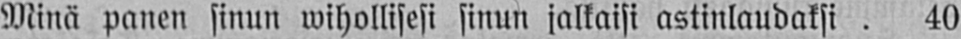Minä panen sinun wihollisesi sinun jalkaisi astinlaudaksi 40
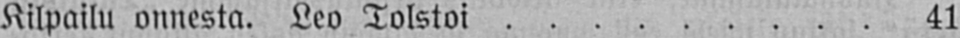Kilpailu onnesta. Leo Tolstoi 41
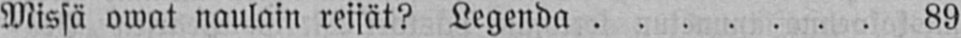Missä owat naulain reijät? Legenda 89
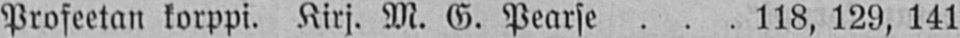Profeetan korppi. Kirj. M. G. Pearse 118, 129, 141
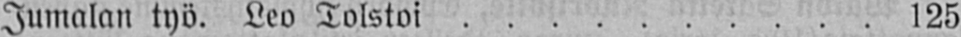Jumalan työ. Leo Tolstoi l25
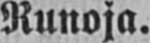Runoja.
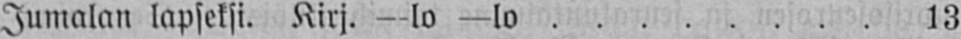Jumalan lapseksi. Kirj. —lo —lo 13
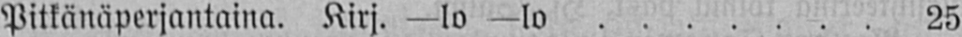Pitkänäperjantaina. Kirj. —lo —lo 25
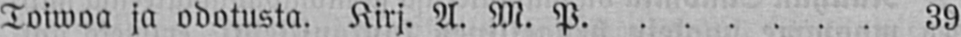Toiwoa ja odotusta. Kirj. A. W. P. 39
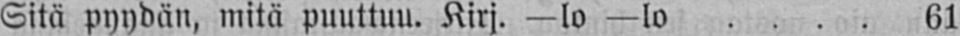Sitä pyydän, mitä puuttuu. Kirj. —lo —lo 61
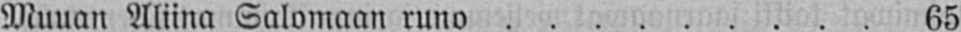Muuan Aliina Salomaan runo 65
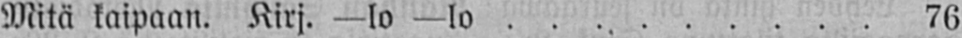Mitä kaipaan. Kirj. —lo —lo 76
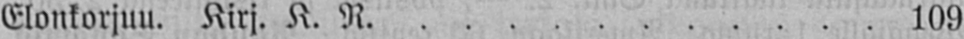Elonkorjuu. Kirj. K. R. 109
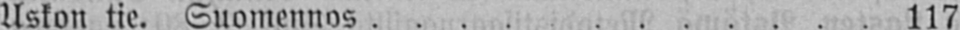Uskon tie. Suomennos 117
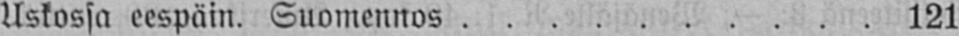Uskossa eespäin. Suomennos 121
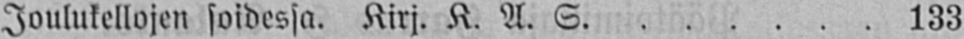Joulukellojen soidessa. Kirj. K. A. S. 133
